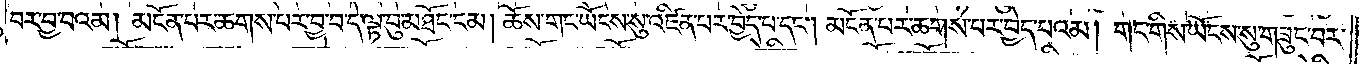བར་བྱ་བའམ། མངོན་པར་ཆགས་པར་བྱ་བ་དེ་ལྟ་བུ་མཐོང་ངམ། ཆོས་གང་ཡོངས་སུ་འཛིན་པར་བྱེད་པ་དང༌། མངོན་པར་ཆགས་པར་བྱེད་པའམ། གང་གིས་ཡོངས་སུ་གཟུང་བར་
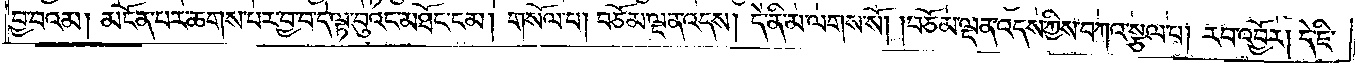བྱ་བའམ། མངོན་པར་ཆགས་པར་བྱ་བ་དེ་ལྟ་བུའང་མཐོང་ངམ། གསོལ་པ། བཅོམ་ལྡན་འདས། དེ་ནི་མ་ལགས་སོ། །བཅོམ་ལྡན་འདས་ཀྱིས་བཀའ་སྩལ་པ། རབ་འབྱོར། དེ་ཇི་
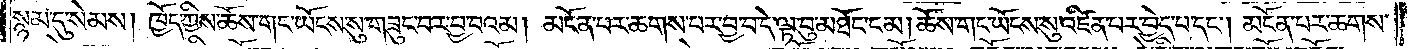སྙམ་དུ་སེམས། ཁྱོད་ཀྱིས་ཆོས་གང་ཡོངས་སུ་གཟུང་བར་བྱ་བའམ། མངོན་པར་ཆགས་པར་བྱ་བ་དེ་ལྟ་བུ་མཐོང་ངམ། ཆོས་གང་ཡོངས་སུ་འཛིན་པར་བྱེད་པ་དང༌། མངོན་པར་ཆགས་
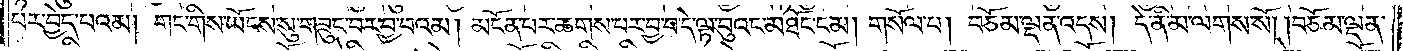པར་བྱེད་པའམ། གང་གིས་ཡོངས་སུ་གཟུང་བར་བྱ་བའམ། མངོན་པར་ཆགས་པར་བྱ་བ་དེ་ལྟ་བུའང་མཐོང་ངམ། གསོལ་པ། བཅོམ་ལྡན་འདས། དེ་ནི་མ་ལགས་སོ། །བཅོམ་ལྡན་
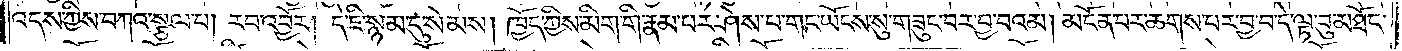འདས་ཀྱིས་བཀའ་སྩལ་པ། རབ་འབྱོར། དེ་ཇི་སྙམ་དུ་སེམས། ཁྱོད་ཀྱིས་མིག་གི་རྣམ་པར་ཤེས་པ་གང་ཡོངས་སུ་གཟུང་བར་བྱ་བའམ། མངོན་པར་ཆགས་པར་བྱ་བ་དེ་ལྟ་བུ་མཐོང་
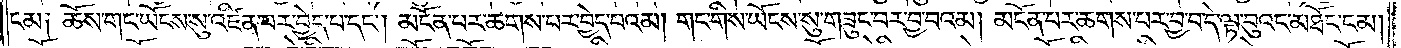ངམ༑ ཆོས་གང་ཡོངས་སུ་འཛིན་པར་བྱེད་པ་དང༌། མངོན་པར་ཆགས་པར་བྱེད་པའམ། གང་གིས་ཡོངས་སུ་གཟུང་བར་བྱ་བའམ། མངོན་པར་ཆགས་པར་བྱ་བ་དེ་ལྟ་བུའང་མཐོང་ངམ།
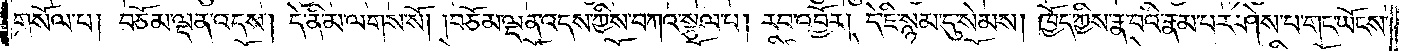གསོལ་པ། བཅོམ་ལྡན་འདས། དེ་ནི་མ་ལགས་སོ། །བཅོམ་ལྡན་འདས་ཀྱིས་བཀའ་སྩལ་པ། རབ་འབྱོར། དེ་ཇི་སྙམ་དུ་སེམས། ཁྱོད་ཀྱིས་རྣ་བའི་རྣམ་པར་ཤེས་པ་གང་ཡོངས་
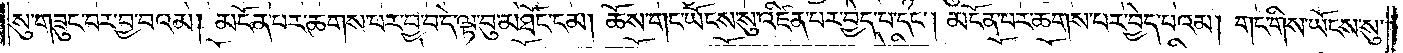སུ་གཟུང་བར་བྱ་བའམ། མངོན་པར་ཆགས་པར་བྱ་བ་དེ་ལྟ་བུ་མཐོང་ངམ། ཆོས་གང་ཡོངས་སུ་འཛིན་པར་བྱེད་པ་དང༌། མངོན་པར་ཆགས་པར་བྱེད་པའམ། གང་གིས་ཡོངས་སུ་
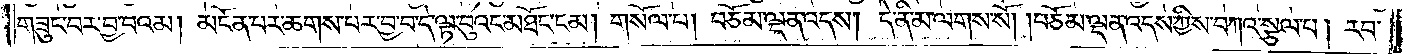གཟུང་བར་བྱ་བའམ། མངོན་པར་ཆགས་པར་བྱ་བ་དེ་ལྟ་བུའང་མཐོང་ངམ། གསོལ་པ། བཅོམ་ལྡན་འདས། དེ་ནི་མ་ལགས་སོ། །བཅོམ་ལྡན་འདས་ཀྱིས་བཀའ་སྩལ་པ། རབ་
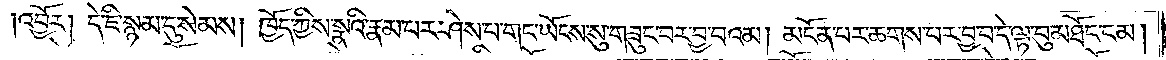འབྱོར། དེ་ཇི་སྙམ་དུ་སེམས། ཁྱོད་ཀྱིས་སྣའི་རྣམ་པར་ཤེས་པ་གང་ཡོངས་སུ་གཟུང་བར་བྱ་བའམ། མངོན་པར་ཆགས་པར་བྱ་བ་དེ་ལྟ་བུ་མཐོང་ངམ།
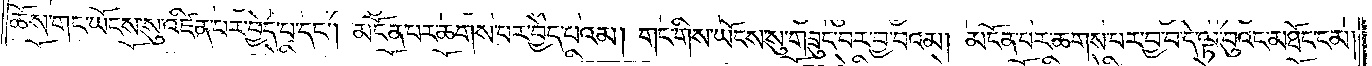ཆོས་གང་ཡོངས་སུ་འཛིན་པར་བྱེད་པ་དང༌། མངོན་པར་ཆགས་པར་བྱེད་པའམ། གང་གིས་ཡོངས་སུ་གཟུང་བར་བྱ་བའམ། མངོན་པར་ཆགས་པར་བྱ་བ་དེ་ལྟ་བུའང་མཐོང་ངམ།
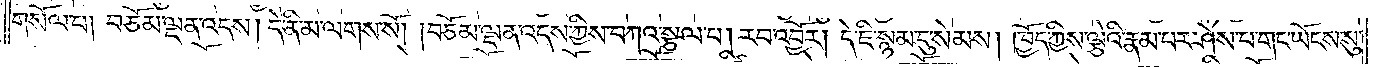གསོལ་བ། བཅོམ་ལྡན་འདས། དེ་ནི་མ་ལགས་སོ། །བཅོམ་ལྡན་འདས་ཀྱིས་བཀའ་སྩལ་པ། རབ་འབྱོར། དེ་ཇི་སྙམ་དུ་སེམས། ཁྱོད་ཀྱིས་ལྕེའི་རྣམ་པར་ཤེས་པ་གང་ཡོངས་སུ་
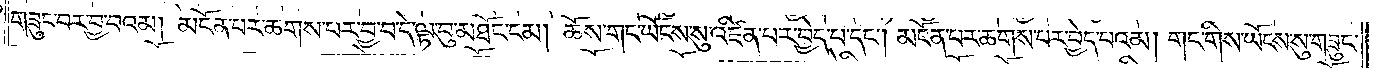གཟུང་བར་བྱ་བའམ། མངོན་པར་ཆགས་པར་བྱ་བ་དེ་ལྟ་བུ་མཐོང་ངམ། ཆོས་གང་ཡོངས་སུ་འཛིན་པར་བྱེད་པ་དང༌། མངོན་པར་ཆགས་པར་བྱེད་པའམ། གང་གིས་ཡོངས་སུ་གཟུང་
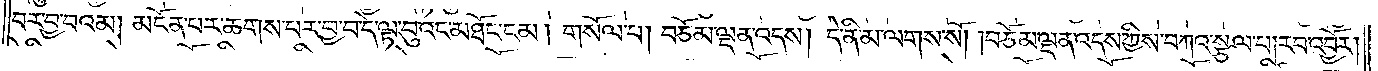བར་བྱ་བའམ། མངོན་པར་ཆགས་པར་བྱ་བ་དེ་ལྟ་བུའང་མཐོང་ངམ། གསོལ་པ། བཅོམ་ལྡན་འདས། དེ་ནི་མ་ལགས་སོ། །བཅོམ་ལྡན་འདས་ཀྱིས་བཀའ་སྩལ་པ། རབ་འབྱོར།
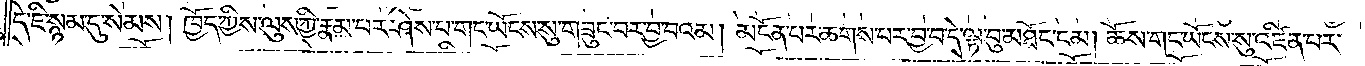དེ་ཇི་སྙམ་དུ་སེམས། ཁྱོད་ཀྱིས་ལུས་ཀྱི་རྣམ་པར་ཤེས་པ་གང་ཡོངས་སུ་གཟུང་བར་བྱ་བའམ། མངོན་པར་ཆགས་པར་བྱ་བ་དེ་ལྟ་བུ་མཐོང་ངམ། ཆོས་གང་ཡོངས་སུ་འཛིན་པར་
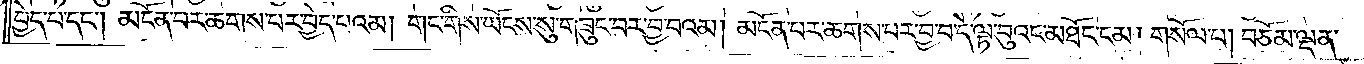བྱེད་པ་དང༌། མངོན་པར་ཆགས་པར་བྱེད་པའམ། གང་གིས་ཡོངས་སུ་བཟུང་བར་བྱ་བའམ། མངོན་པར་ཆགས་པར་བྱ་བ་དེ་ལྟ་བུའང་མཐོང་ངམ། གསོལ་པ། བཅོམ་ལྡན་
